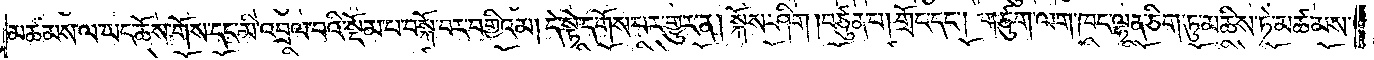མཚམས་ལ་ཡང་ཆོས་གོས་དང་མི་འབྲལ་བའི་སྡོམ་པ་བསྐོ་བར་བགྱིའམ། དེ་སྟེ་དགོས་པར་གྱུར་ན། སྐོས་ཤིག །བཙུན་པ། གྲོང་དང༌། གཙུག་ལག་ཁང་ལྷན་ཅིག་ཏུ་མཆིས་ཏེ་མཚམས་
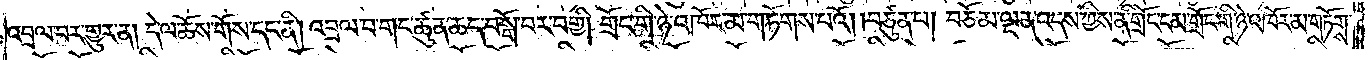འབྲལ་བར་གྱུར་ན། དེ་ལ་ཆོས་གོས་དང་ནི། འབྲལ་བ་གང་ཚུན་ཆད་བསྒོ་བར་བགྱི། གྲོང་གི་ཉེ་འཁོར་མ་གཏོགས་པའོ། །བཙུན་པ། བཅོམ་ལྡན་འདས་ཀྱིས་ནི་གྲོང་ངམ་གྲོང་གི་ཉེ་འཁོར་མ་གཏོགས་
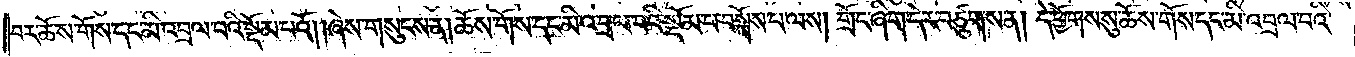བར་ཆོས་གོས་དང་མི་འབྲལ་བའི་སྡོམ་པའོ། །ཞེས་གསུངས་ན། ཆོས་གོས་དང་མི་འབྲལ་བའི་སྡོམ་པ་བསྐོས་པ་ལས། གྲོང་ཞིག་དེར་བཙུགས་ན། དེ་ཕྱོགས་སུ་ཆོས་གོས་དང་མི་འབྲལ་བའི་
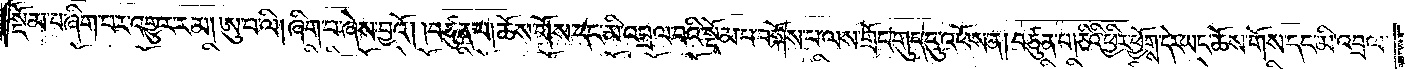སྡོམ་པ་ཞིག་པར་འགྱུར་རམ། ཨུ་པ་ལི། ཞིག་པ་ཞེས་བྱའོ། །བཙུན་པ། ཆོས་གོས་དང་མི་འབྲལ་བའི་སྡོམ་པ་བསྐོས་པ་ལས་གྲོང་གུད་དུ་འཕོས་ན། བཙུན་པ། ཅིའི་ཕྱིར་ཕྱོགས་དེར་ཆོས་གོས་དང༌། མི་འབྲལ་
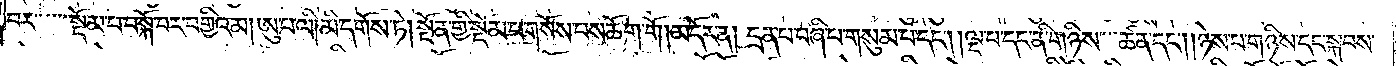བར་སྡོམ་པ་བསྐོ་བར་བགྱིའམ། ཨུ་པ་ལི། མི་དགོས་ཏེ། སྔོན་གྱི་སྡོམ་པ་གསོས་པས་ཆོག་གོ། མདོར་ན། དྲན་པ་བཞི་པ་གསུམ་པ་དང༌། ལྔ་པ་དང་ནི་གཉིས་ཚན་དང༌། །ཉེས་པ་གཉིས་དང་སྐབས་
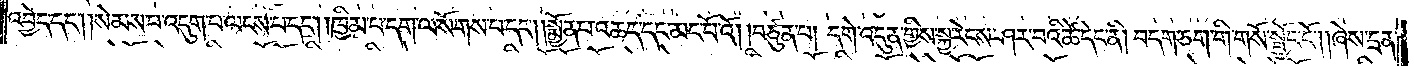འབྱེད་དང༌། །སེམས་པ་འདུག་པ་ལངས་པ་དང༌། །ཁྱིམ་པ་དག་ལ་སོགས་པ་དང༌། །སྨྱོན་པ་འཆད་དང་མང་པོའོ། །བཙུན་པ། དགེ་འདུན་གྱིས་སྐྱ་རེངས་ཤར་བའི་ཚེ་དེང་ནི། བདག་ཅག་གི་གསོ་སྦྱོང་ངོ༌། །ཞེས་དྲན་
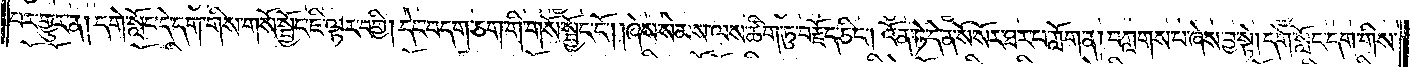པར་གྱུར་ན། དགེ་སློང་དེ་དག་གིས་གསོ་སྦྱོང་ཇི་ལྟར་བགྱི། དེང་བདག་ཅག་གི་གསོ་སྦྱོང་ངོ༌། །ཞེས་སེམས་ལས་ཚིག་ཏུ་བརྗོད་ཅིང༌། འོན་ཏེ་དེ་ན་སོ་སོར་ཐར་པ་ཀློག་ན། བཀླགས་པ་ཞེས་བྱ་སྟེ། དགེ་སློང་དག་གིས་
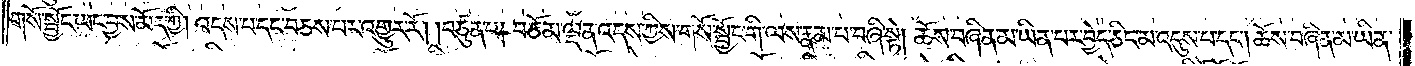གསོ་སྦྱོང་ཡང་བྱས་མོད་ཀྱི། འདས་པ་དང་བཅས་པར་འགྱུར་རོ། །བཙུན་པ། བཅོམ་ལྡན་འདས་ཀྱིས་གསོ་སྦྱོང་གི་ལས་རྣམ་པ་བཞི་སྟེ། ཆོས་བཞིན་མ་ཡིན་པར་བྱེད་ཅིང་མ་འདུས་པ་དང༌། ཆོས་བཞིན་མ་ཡིན་
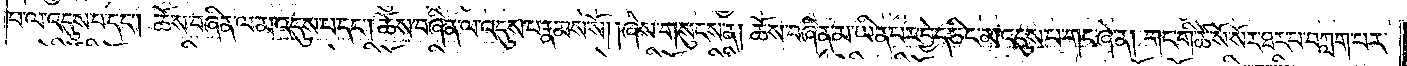པ་ལ་འདུས་པ་དང༌། ཆོས་བཞིན་ལ་མ་འདུས་པ་དང༌། ཆོས་བཞིན་ལ་འདུས་པ་རྣམས་སོ། །ཞེས་གསུངས་ན། ཆོས་བཞིན་མ་ཡིན་པར་བྱེད་ཅིང་མ་འདུས་པ་གང་ཞེ་ན། གང་གི་ཚེ་སོ་སོར་ཐར་པ་བཀླག་པར་
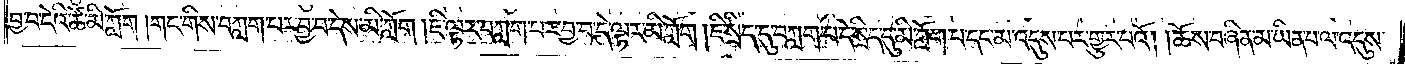བྱ་བ་དེའི་ཚེ་མི་ཀློག །གང་གིས་བཀླག་པར་བྱ་བ་དེས་མི་ཀློག །ཇི་ལྟར་བཀླག་པར་བྱ་བ་དེ་ལྟར་མི་ཀློག །ཇི་སྲིད་དུ་བཀླག་པ་དེ་སྲིད་དུ་མི་ཀློག་པ་དང་མ་འདུས་པར་གྱུར་པའོ། །ཆོས་བཞིན་མ་ཡིན་པ་ལ་འདུས་
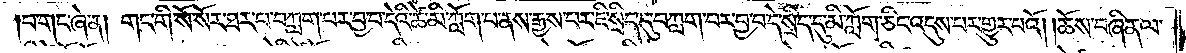པ་གང་ཞེ་ན། གང་གི་སོ་སོར་ཐར་པ་བཀླག་པར་བྱ་བ་དེའི་ཚེ་མི་ཀློག་པ་ནས་རྒྱས་པར་ཇི་སྲིད་དུ་བཀླག་པར་བྱ་བ་དེ་སྲིད་དུ་མི་ཀློག་ཅིང་འདུས་པར་གྱུར་པའོ། །ཆོས་བཞིན་ལ་
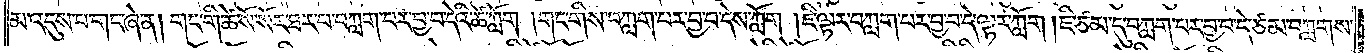མ་འདུས་པ་གང་ཞེ་ན། གང་གི་ཚེ་སོ་སོར་ཐར་པ་བཀླག་པར་བྱ་བ་དེའི་ཚེ་ཀློག །གང་གིས་བཀླག་པར་བྱ་བ་དེས་ཀློག །ཇི་ལྟར་བཀླག་པར་བྱ་བ་དེ་ལྟར་ཀློག །ཇི་ཙམ་དུ་བཀླག་པར་བྱ་བ་དེ་ཙམ་བཀླགས་
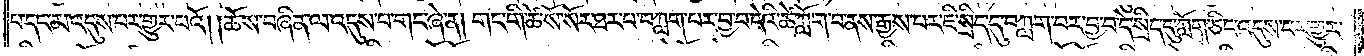པ་དང་མ་འདུས་པར་གྱུར་པའོ། །ཆོས་བཞིན་ལ་འདུས་པ་གང་ཞེ་ན། གང་གི་ཚེ་སོ་སོར་ཐར་པ་བཀླག་པར་བྱ་བ་དེའི་ཚེ་ཀློག་པ་ནས་རྒྱས་པར་ཇི་སྲིད་དུ་བཀླག་པར་བྱ་བ་དེ་སྲིད་དུ་ཀློག་ཅིང་འདུས་པར་གྱུར་
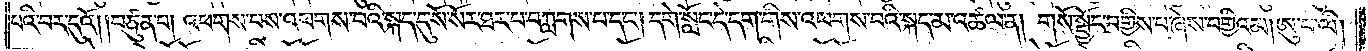བའི་བར་དུའོ། །བཙུན་པ། འཕགས་པས་འཕགས་པའི་སྐད་དུ་སོ་སོར་ཐར་པ་བཀླགས་པ་དང༌། དགེ་སློང་དེ་དག་གིས་འཕགས་པའི་སྐད་མ་འཚལ་ན། གསོ་སྦྱོང་བགྱིས་པ་ཞེས་བགྱིའམ། ཨུ་པ་ལི།
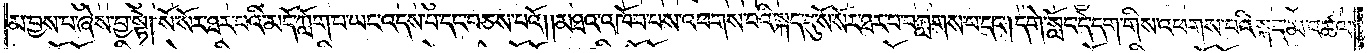མ་བྱས་པ་ཞེས་བྱ་སྟེ། སོ་སོར་ཐར་པའི་མདོ་ཀློག་པ་ཡང་འདས་པ་དང་བཅས་པའོ། །མཐའ་འཁོབ་པས་འཕགས་པའི་སྐད་དུ་སོ་སོར་ཐར་པ་བཀླགས་པ་དང༌། དགེ་སློང་དེ་དག་གིས་འཕགས་པའི་སྐད་མ་འཚལ་
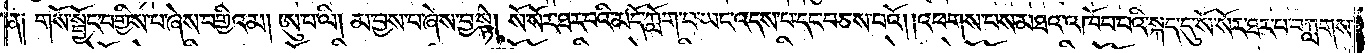ན། གསོ་སྦྱོང་བགྱིས་པ་ཞེས་བགྱིའམ། ཨུ་པ་ལི། མ་བྱས་པ་ཞེས་བྱ་སྟེ། སོ་སོར་ཐར་པའི་མདོ་ཀློག་པ་ཡང་འདས་པ་དང་བཅས་པའོ། །འཕགས་པས་མཐའ་འཁོབ་པའི་སྐད་དུ་སོ་སོར་ཐར་པ་བཀླགས་
